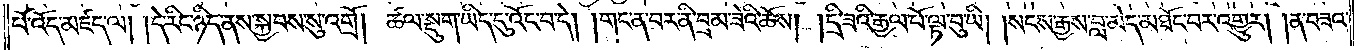པོ་འོད་མཛད་ལ། །དེ་རིང་ཉིད་ནས་སྐྱབས་སུ་འགྲོ། ཚལ་སྡུག་ཡིད་དུ་འོང་བ་དེ། །གང་ན་བར་ནི་བྲམ་ཟེའི་ཆོས། །དྲི་ཟའི་རྒྱལ་པོ་ལྟ་བུ་ཡི། །སངས་རྒྱས་བླ་མེད་མཐོང་བར་འགྱུར། །ན་བཟའ་
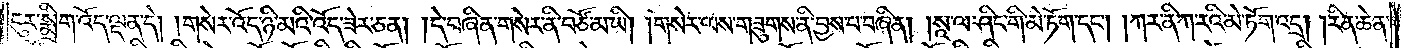ངུར་སྨྲིག་འོད་ལྡན་དེ། །གསེར་འོད་ཉི་མའི་འོད་ཟེར་ཅན། །དེ་བཞིན་གསེར་ནི་བཙོ་མ་ཡི། །གསེར་ལས་གཟུགས་ནི་བྱས་པ་བཞིན། །སཱ་ལ་ཤིང་གི་མེ་ཏོག་དང༌། །ཀར་ནི་ཀ་རའི་མེ་ཏོག་འདྲ། །རིན་ཆེན་
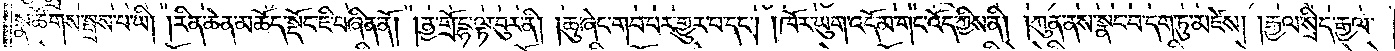སྣ་ཚོགས་སྤྲས་པ་ཡི། །རིན་ཆེན་མཆོད་སྡོང་ཇི་བཞིན་ནོ། །ནྱ་གྲོ་དྷ་ལྟ་བུར་ནི། །ཆུ་ཞེང་གབ་པར་གྱུར་བ་དང༌། །ཁོར་ཡུག་འདོམ་གང་འོད་ཀྱིས་ནི། །ཀུན་ནས་སྣང་བ་དག་ཏུ་མཛེས། །རྒྱལ་སྲིད་རྒྱལ་
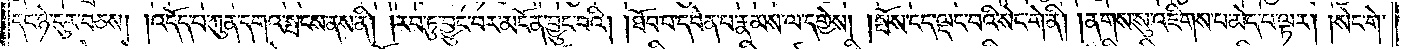དང་ཉེ་དུར་བཅས། །འདོད་པ་ཀུན་དགའ་སྤངས་ནས་ནི། །རབ་ཏུ་བྱུང་བར་མངོན་བྱུང་བའི། །ཐོབ་པ་དབེན་པ་རྣམས་ལ་དགྱེས། །སྤོས་ངད་ལྡང་བའི་སེང་གེ་ནི། །ནགས་སུ་འཇིགས་པ་མེད་པ་ལྟར། །སེང་གེ་
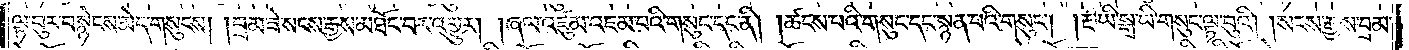ལྟ་བུར་བསྙེངས་མེད་གསུངས། །བྲམ་ཟེ་སངས་རྒྱས་མཐོང་བར་འགྱུར། །ཞལ་འཛུམ་འཇམ་པའི་གསུང་དང་ནི། །ཚངས་པའི་གསུང་དང་སྙན་པའི་གསུང༌། །རྔ་ཡི་སྒྲ་ཡི་གསུང་ལྟ་བུའི། །སངས་རྒྱས་བྲམ་
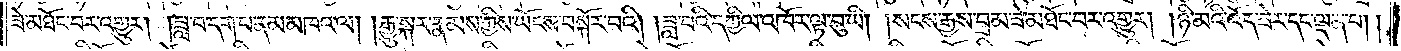ཟེ་མཐོང་བར་འགྱུར། །ཟླ་བ་དག་པ་ནམ་མཁའ་ལ། །རྒྱུ་སྐར་རྣམས་ཀྱིས་ཡོངས་བསྐོར་བའི། །ཟླ་བའི་དཀྱིལ་འཁོར་ལྟ་བུ་ཡི། །སངས་རྒྱས་བྲམ་ཟེ་མཐོང་བར་འགྱུར། །ཉི་མའི་འོད་ཟེར་དང་ལྡན་པ། །
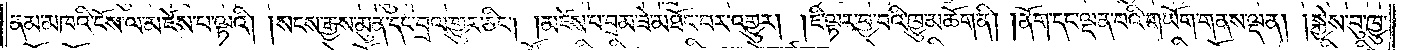ནམ་མཁའི་ངོས་ལ་མཛེས་པ་ལྟའི། །སངས་རྒྱས་མུན་དང་བྲལ་གྱུར་ཅིང༌། །མཛེས་པ་བྲམ་ཟེ་མཐོང་བར་འགྱུར། །ཇི་ལྟར་བྱ་བའི་ཁྱུ་མཆོག་ནི། །ནོག་དང་ལྡན་པའི་གཡོག་གནས་ལྡན། །སྐྱེས་བུ་ཁྱུ་
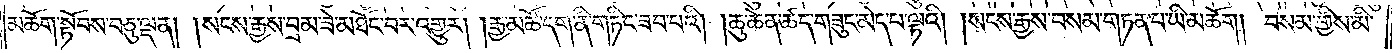མཆོག་སྟོབས་བཅུ་ལྡན། །སངས་རྒྱས་བྲམ་ཟེ་མཐོང་བར་འགྱུར། །རྒྱ་མཚོ་དག་ནི་གཏིང་ཟབ་པའི། །ཆུ་ཆེན་ཚད་གཟུང་མེད་པ་ལྟའི། །སངས་རྒྱས་བསམ་གཏན་པ་ཡི་མཆོག །བསམ་གྱིས་མི་
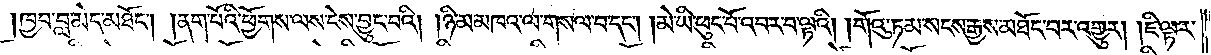ཁྱབ་བླ་མེད་མཐོང༌། །ནག་པོའི་ཕྱོགས་ལས་ངེས་བྱུང་བའི། །ཉི་མ་མཁའ་ལ་གསལ་བ་དང༌། །མེ་ཡི་ཕུང་པོ་འབར་བ་ལྟའི། །གོའུ་ཏམ་སངས་རྒྱས་མཐོང་བར་འགྱུར། །ཇི་ལྟར་
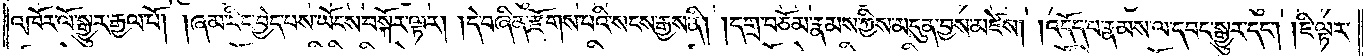འཁོར་ལོ་སྒྱུར་རྒྱལ་པོ། །ཞམ་རིང་བྱེད་པས་ཡོངས་བསྐོར་ལྟར། །དེ་བཞིན་རྫོགས་པའི་སངས་རྒྱས་ནི། །དགྲ་བཅོམ་རྣམས་ཀྱིས་མདུན་བྱས་མཛེས། །འདོད་པ་རྣམས་ལ་དབང་སྒྱུར་དང༌། །ཇི་ལྟར་
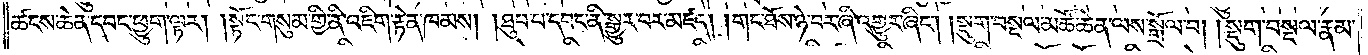ཚངས་ཆེན་དབང་ཕྱུག་ལྟར། །སྟོང་གསུམ་གྱི་ནི་འཇིག་རྟེན་ཁམས། །ཐུབ་པ་དབང་ནི་སྒྱུར་བར་མཛད། །གང་ཐོས་ཉེ་བར་ཞི་འགྱུར་ཞིང༌། །སྡུག་བསྔལ་མཚོ་ཆེན་ལས་སྒྲོལ་བ། །སྡུག་བསྔལ་རྣམ་
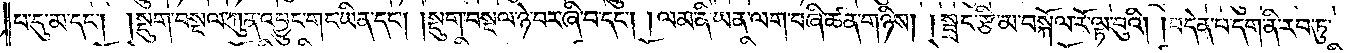པ་དུ་མ་དང༌། །སྡུག་བསྔལ་ཀུན་འབྱུང་གང་ཡིན་དང༌། །སྡུག་བསྔལ་ཉེ་བར་ཞི་བ་དང༌། །ལམ་ནི་ཡན་ལག་བཞི་ཚན་གཉིས། །སྦྲང་རྩི་མ་བསྐོལ་རོ་ལྟ་བུའི། །བདེན་པ་དག་ནི་རབ་ཏུ་
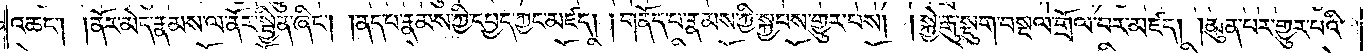འཆང༌། །ནོར་མེད་རྣམས་ལ་ནོར་སྦྱིན་ཞིང༌། །ནད་པ་རྣམས་ཀྱི་དཔྱད་ཀྱང་མཛད། །གནོད་པ་རྣམས་ཀྱི་སྐྱབས་གྱུར་པས། །སྐྱེ་རྒུ་སྡུག་བསྔལ་གྲོལ་བར་མཛད། །མུན་པར་གྱུར་པའི་
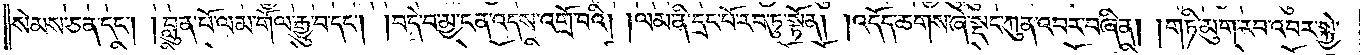སེམས་ཅན་དང༌། །བླུན་པོ་ལམ་གོལ་རྒྱུ་བ་དང༌། །བདེ་བ་མྱ་ངན་འདས་འགྲོ་བའི། །ལམ་ནི་དྲང་པོ་རབ་ཏུ་སྟོན། །འདོད་ཆགས་ཞེ་སྡང་ཀུན་འབར་ཞིང༌། །གཏི་མུག་རབ་འབར་སྐྱེ་
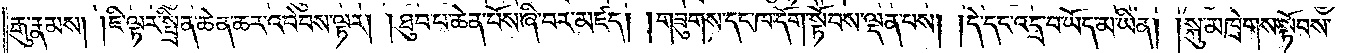རྒུ་རྣམས། །ཇི་ལྟར་སྤྲིན་ཆེན་ཆར་འབེབས་ལྟར། །ཐུབ་པ་ཆེན་པོས་ཞི་བར་མཛད། །གཟུགས་དང་ཁ་དོག་སྟོབས་ལྡན་པས། །དེ་དང་འདྲ་བ་ཡོད་མ་ཡིན། །སྐུ་མཁྲེགས་སྟོབས་
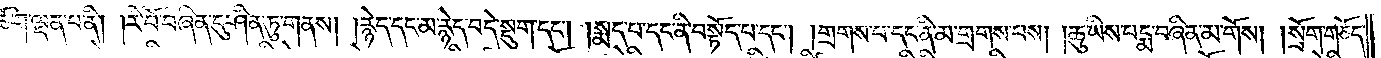མཆོག་ལྡན་པ་ནི། །རི་བོ་བཞིན་དུ་ཤིན་ཏུ་གནས། །རྙེད་དང་མ་རྙེད་བདེ་སྡུག་དང༌། །སྨད་པ་དང་ནི་བསྟོད་པ་དང༌། །གྲགས་པ་དང་ནི་མ་གྲགས་པས། །ཆུ་ཡིས་པདྨ་བཞིན་མ་གོས། །སྲོག་གཅོད་
